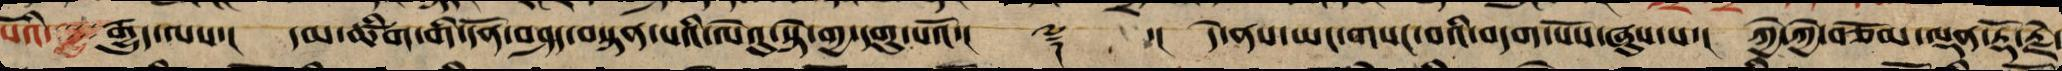པོའི་རྒྱུད་ལས།་ དམ་ཚིག་གི་དོན་བཤད་སྟན་པའི་ལེའུ་སྟེ་གྱ་དགུ་པའོ་།། ༈ ་།། དེ་ནས་ཡང་གསང་བའི་བདག་པོས་ཞུས་པ་། ཀྱེ་ཀྱེ་བཅོམ་ལྡན་རྡོ་རྗེ་
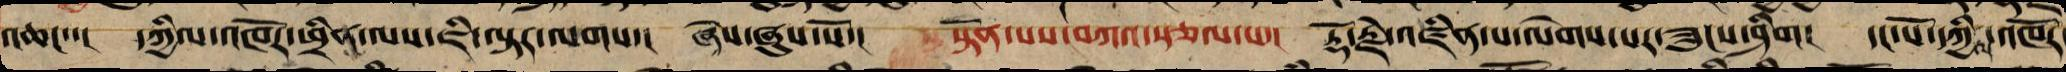འཆང་་། དཀྱིལ་འཁོར་ཕྲིན་ལས་ཇི་ལྟར་ལགས་། ཞེས་ཞུས་སོ་། སྟོན་པས་བཀའ་སྩལ་པ་། རྡོ་རྗེ་འཛིན་པ་ལེགས་པར་ཟུངས་ཤིག། དང་པོ་དཀྱིལ་འཁོར་
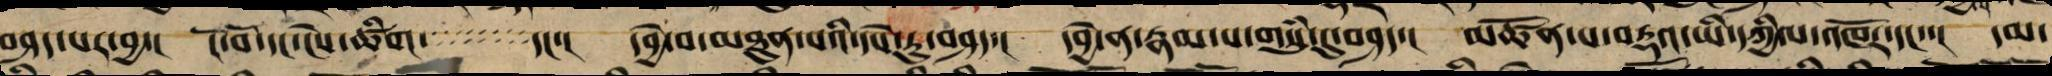བཤད་པར་བྱ་། ངོ་བོ་དང་ངེས་ཚིག་་་་་་་་དང་། དབྱེ་བ་མཐུན་པའི་དཔེ་རུ་བཤད་། དབྱེ་ན་རྣམ་པ་གསུཾ་དུ་བཤད་། མཚོན་པ་བརྡའ་ཡི་དཀྱིལ་འཁོར་དང་་། དམ་
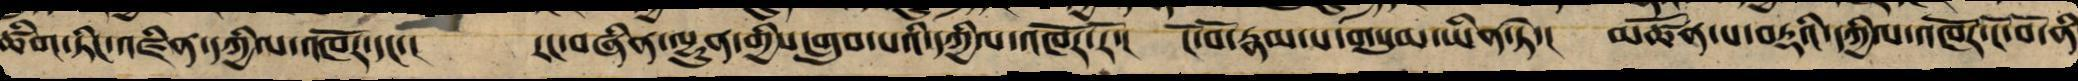ཚིག་ཏིང་འཛིན་དཀྱིལ་འཁོར་དང་། རང་བཞིན་ལྷུན་གྱིས་གྲུབ་པའི་དཀྱིལ་འཁོར་རོ་། ངོ་བོ་རྣམ་པ་གསུམ་ཡིན་ཏེ་། མཚོན་པ་བརྡའི་དཀྱིལ་འཁོར་ངོ་བོ་ནི
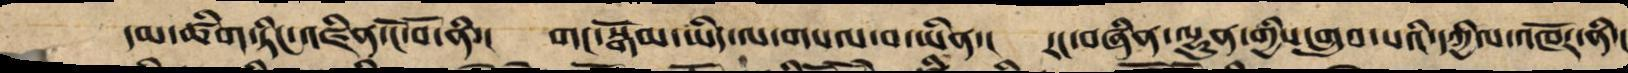དམ་ཚིག་ཏིང་འཛིན་ངོ་བོ་ནི་། གང་སྒོམ་ཡིད་ལ་གསལ་བ་ཡིན་། རང་བཞིན་ལྷུན་གྱིས་གྲུབ་པའི་དཀྱིལ་འཁོར་ནི་།
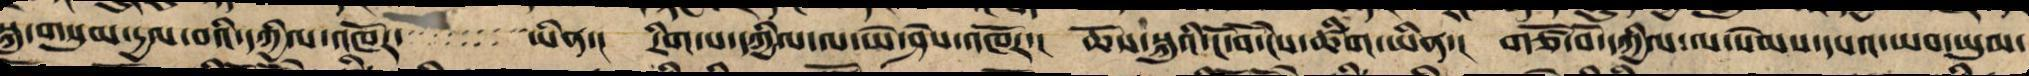སྐུ་གསུམ་དྱལ་བའི་དཀྱིལ་འཁོར་་་་་་་་་ཡིན་། རིག་པ་དཀྱིལ་ལ་ཡེ་ཤེས་འཁོར་། ཆོས་སྐུའི་ངོ་བོ་ངེས་ཚིག་ཡིན་། གཙོ་བོ་དཀྱིལ་ལ་སེམས་དཔའ་ཡབ་ཡུམ་
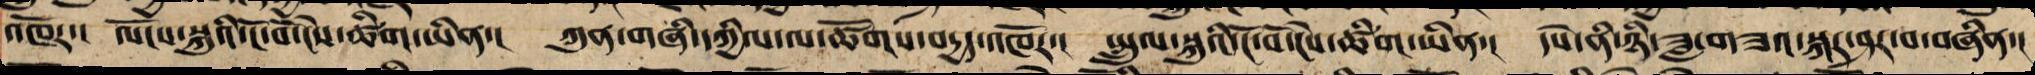འཁོར་། ལོངས་སྐུའི་ངོ་བོ་ངེས་ཚིག་ཡིན་། ཀུན་གཞི་དཀྱིལ་ལ་ཚོགས་བདྱད་འཁོར་། སྤྲུལ་སྐུའི་ངོ་བོ་ངེས་ཚིག་ཡིན་། དཔེ་ནི་ཉི་ཟླ་གཟའ་སྐར་ཤར་བ་བཞིན་།
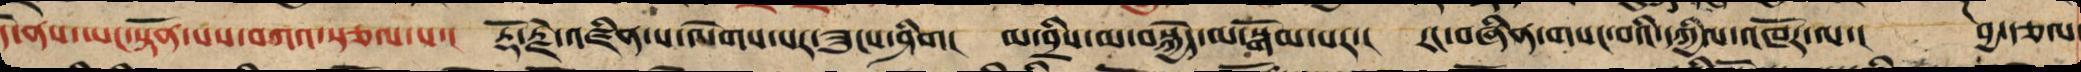དེ་ནས་ཡང་སྟོན་པས་བཀའ་སྩལ་པ་། རྡོ་རྗེ་འཛིན་པ་ལེགས་པར་ཟུངས་ཤིག། མ་བྲིས་མ་བསྐྱེད་མ་སྒོམ་པར་། རང་བཞིན་གསལ་བའི་དཀྱིལ་འཁོར་ལ་། བྱ་རྩལ་
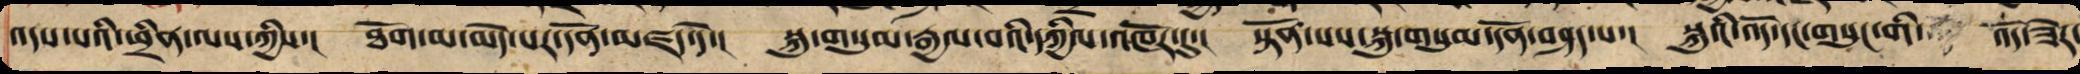འདས་པའི་ཕྲིན་ལས་ཀྱིས་། ཐོག་མ་མེད་པར་དོན་མཛད་དེ་། སྐུ་གསུམ་རྒྱལ་བའི་དཀྱིལ་འཁོར་དུ་། སྟོན་པས་སྐུ་གསུམ་དོན་མཛད་དེ་། སྐུའི་འོད་དང་གསུང་གི་  འོད་ཟེར་
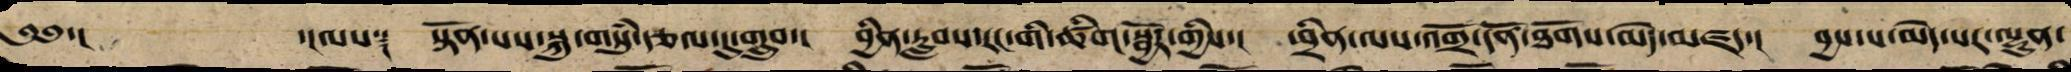༄༅་།  ་།ལས༑ སྟོན་པས་སྐུ་གསུཾ་རྩལ་དུ་གྲུབ་། བྱིན་རླབས་ངང་གི་ཚིག་སྦྱོར་གྱིས་། ཕྲིན་ལས་འགྲོ་དོན་ཐོགས་མེད་མཛད་། བྱས་པ་མེད་པར་ལྷུན་
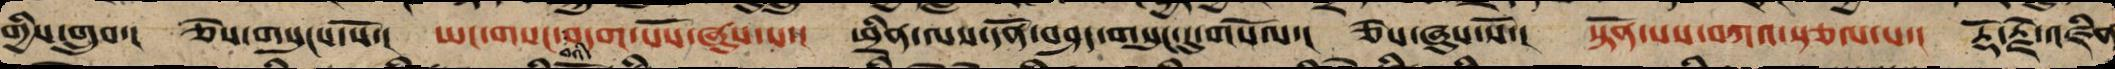གྱིས་གྲུབ་། ཅེས་གསུངས་སོ་། ཡང་གསང་བའི་བདག་པོས་ཞུས་པ་། ཕྲིན་ལས་དོན་བཤད་གསུང་དུ་གསོལ་། ཅེས་ཞུས་སོ་། སྟོན་པས་བཀའ་སྩལ་པ་། རྡོ་རྗེ་འཛིན
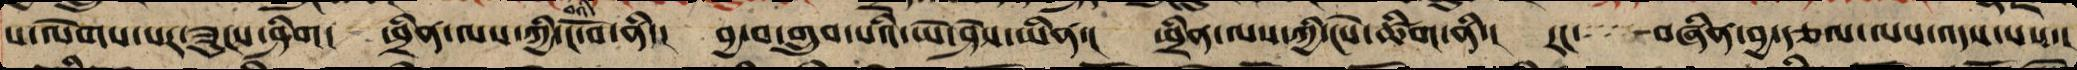པ་ལེགས་པར་ཟུངས་ཤིག། ཕྲིན་ལས་ཀྱི་ངོ་བོ་ནི་། བྱ་བ་གྲུབ་པའི་ཡེ་ཤེས་ཡིན་། ཕྲིན་ལས་ཀྱི་ངེས་ཚིག་ནི་། རང་བཞིན་བྱ་རྩལ་ལས་འདས་པ་ས།
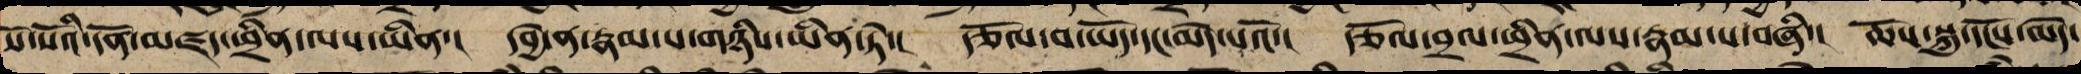སོ་སོའི་དོན་མཛད་ཕྲིན་ལས་ཡིན་། དབྱེ་བ་རྣམ་པ་གཉིས་ཡིན་ཏེ་། རྩོལ་བ་ཡོད་དང་མེད་པའོ་། རྩོལ་བྲལ་ཕྲིན་ལས་རྣམ་པ་བཞི་། ཆོས་སྐུ་དངོས་མེད་
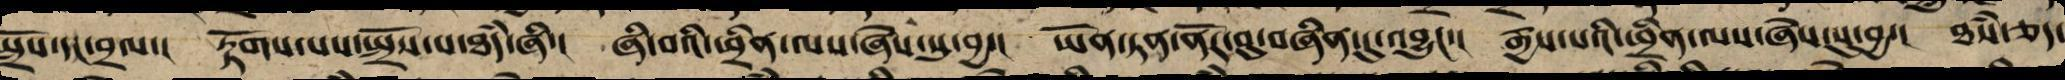སྤྲོས་དང་བྲལ་། རྟོགས་པས་སྤྲོས་པ་ཐཾད་ཞི་། ཞི་བའི་ཕྲིན་ལས་ཞེས་སུ་བྱ་། ཡོན་ཏན་ནོར་བུ་བཞིན་དུ་འབྱུང་། རྒྱས་པའི་ཕྲིན་ལས་ཞེས་སུ་བྱ་། ཐཾས་ཅད་
